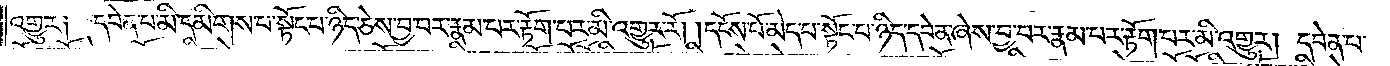འགྱུར༏ དབེན་པ་མི་དམིགས་པ་སྟོང་པ་ཉིད་ཅེས་བྱ་བར་རྣམ་པར་རྟོག་པར་མི་འགྱུར་རོ། །དངོས་པོ་མེད་པ་སྟོང་པ་ཉིད་དབེན་ཞེས་བྱ་བར་རྣམ་པར་རྟོག་པར་མི་འགྱུར། དབེན་པ་
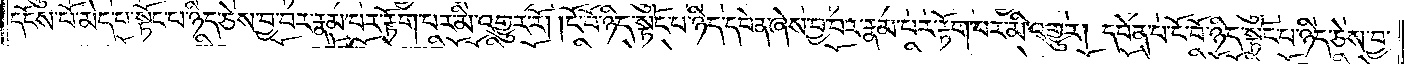དངོས་པོ་མེད་པ་སྟོང་པ་ཉིད་ཅེས་བྱ་བར་རྣམ་པར་རྟོག་པར་མི་འགྱུར་རོ། །ངོ་བོ་ཉིད་སྟོང་པ་ཉིད་དབེན་ཞེས་བྱ་བར་རྣམ་པར་རྟོག་པར་མི་འགྱུར། དབེན་པ་ངོ་བོ་ཉིད་སྟོང་པ་ཉིད་ཅེས་བྱ་
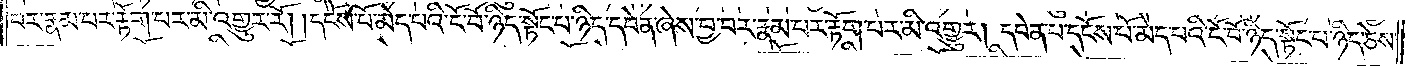བར་རྣམ་པར་རྟོག་པར་མི་འགྱུར་རོ། །དངོས་པོ་མེད་པའི་ངོ་བོ་ཉིད་སྟོང་པ་ཉིད་དབེན་ཞེས་བྱ་བར་རྣམ་པར་རྟོག་པར་མི་འགྱུར། དབེན་པ་དངོས་པོ་མེད་པའི་ངོ་བོ་ཉིད་སྟོང་པ་ཉིད་ཅེས་
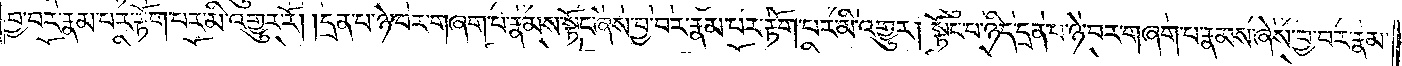བྱ་བར་རྣམ་པར་རྟོག་པར་མི་འགྱུར་རོ། །དྲན་པ་ཉེ་བར་བཞག་པ་རྣམས་སྟོང་ཞེས་བྱ་བར་རྣམ་པར་རྟོག་པར་མི་འགྱུར། སྟོང་པ་ཉིད་དྲན་པ་ཉེ་བར་བཞག་པ་རྣམས་ཞེས་བྱ་བར་རྣམ་
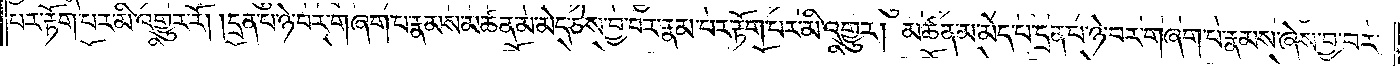པར་རྟོག་པར་མི་འགྱུར་རོ། །དྲན་པ་ཉེ་བར་བཞག་པ་རྣམས་མཚན་མ་མེད་ཅེས་བྱ་བར་རྣམ་པར་རྟོག་པར་མི་འགྱུར། མཚན་མ་མེད་པ་དྲན་པ་ཉ་བར་བཞག་པ་རྣམས་ཞེས་བྱ་བར་
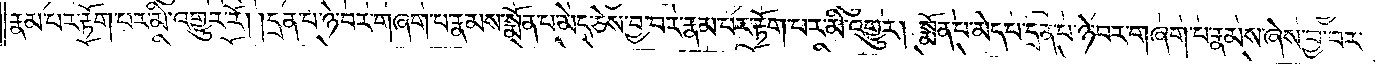རྣམ་པར་རྟོག་པར་མི་འགྱུར་རོ། །དྲན་པ་ཉེ་བར་བཞག་པ་རྣམས་སྨོན་པ་མེད་ཅེས་བྱ་བར་རྣམ་པར་རྟོག་པར་མི་འགྱུར། སྨོན་པ་མེད་པ་དྲན་པ་ཉེ་བར་བཞག་པ་རྣམས་ཞེས་བྱ་བར་
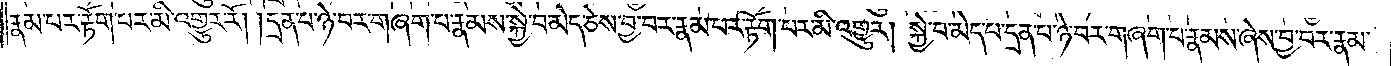རྣམ་པར་རྟོག་པར་མི་འགྱུར་རོ། །དྲན་པ་ཉེ་བར་བཞག་པ་རྣམས་སྐྱེ་བ་མེད་ཅེས་བྱ་བར་རྣམ་པར་རྟོག་པར་མི་འགྱུར། སྐྱེ་བ་མེད་པ་དྲན་པ་ཉེ་བར་བཞག་པ་རྣམས་ཞེས་བྱ་བར་རྣམ་
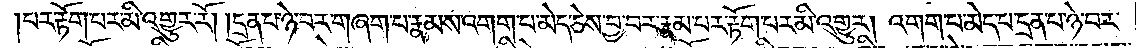པར་རྟོག་པར་མི་འགྱུར་རོ། །དྲན་པ་ཉེ་བར་བཞག་པ་རྣམས་འགག་པ་མེད་ཅེས་བྱ་བར་རྣམ་པར་རྟོག་པར་མི་འགྱུར། འགག་པ་མེད་པ་དྲན་པ་ཉེ་བར་
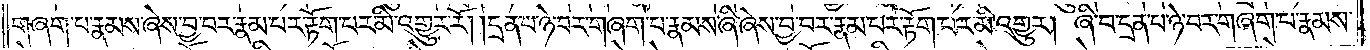གཞག་པ་རྣམས་ཞེས་བྱ་བར་རྣམ་པར་རྟོག་པར་མི་འགྱུར་རོ། །དྲན་པ་ཉེ་བར་གཞག་པ་རྣམས་ཞི་ཞེས་བྱ་བར་རྣམ་པར་རྟོག་པར་མི་འགྱུར། ཞི་བ་དྲན་པ་ཉེ་བར་གཞག་པ་རྣམས་
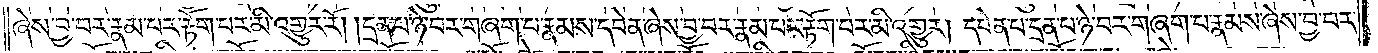ཞེས་བྱ་བར་རྣམ་པར་རྟོག་པར་མི་འགྱུར་རོ། །དྲན་པ་ཉེ་བར་བཞག་པ་རྣམས་དབེན་ཞེས་བྱ་བར་རྣམ་པར་རྟོག་པར་མི་འགྱུར། དབེན་པ་དྲན་པ་ཉེ་བར་བཞག་པ་རྣམས་ཞེས་བྱ་བར་
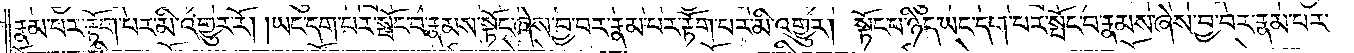རྣམ་པར་རྟོག་པར་མི་འགྱུར་རོ། །ཡང་དག་པར་སྤོང་བ་རྣམས་སྟོང་ཞེས་བྱ་བར་རྣམ་པར་རྟོག་པར་མི་འགྱུར། སྟོང་པ་ཉིད་ཡང་དག་པར་སྤོང་བ་རྣམས་ཞེས་བྱ་བར་རྣམ་པར་
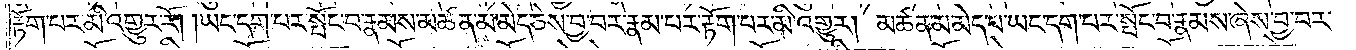རྟོག་པར་མི་འགྱུར་རོ། །ཡང་དག་པར་སྤོང་བ་རྣམས་མཚན་མ་མེད་ཅེས་བྱ་བར་རྣམ་པར་རྟོག་པར་མི་འགྱུར། མཚན་མ་མེད་པ་ཡང་དག་པར་སྤོང་བ་རྣམས་ཞེས་བྱ་བར་
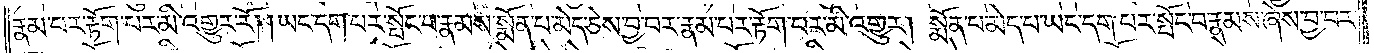རྣམ་པར་རྟོག་པར་མི་འགྱུར་རོ། །ཡང་དག་པར་སྤོང་བ་རྣམས་སྨོན་པ་མེད་ཅེས་བྱ་བར་རྣམ་པར་རྟོག་པར་མི་འགྱུར། སྨོན་པ་མེད་པ་ཡང་དག་པར་སྤོང་བ་རྣམས་ཞེས་བྱ་བར་
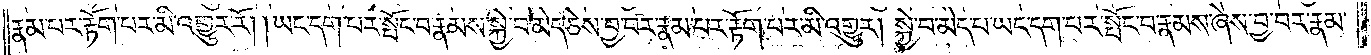རྣམ་པར་རྟོག་པར་མི་འགྱུར་རོ། །ཡང་དག་པར་སྤོང་བ་རྣམས་སྐྱེ་བ་མེད་ཅེས་བྱ་བར་རྣམ་པར་རྟོག་པར་མི་འགྱུར། སྐྱེ་བ་མེད་པ་ཡང་དག་པར་སྤོང་བ་རྣམས་ཞེས་བྱ་བར་རྣམ་
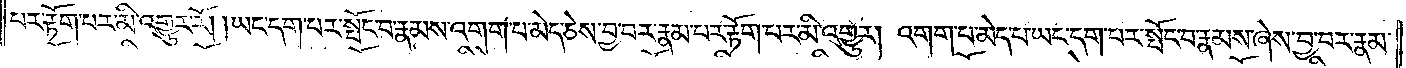པར་རྟོག་པར་མི་འགྱུར་རོ། །ཡང་དག་པར་སྤོང་བ་རྣམས་འགག་པ་མེད་ཅེས་བྱ་བར་རྣམ་པར་རྟོག་པར་མི་འགྱུར། འགག་པ་མེད་པ་ཡང་དག་པར་སྤོང་བ་རྣམས་ཞེས་བྱ་བར་རྣམ་
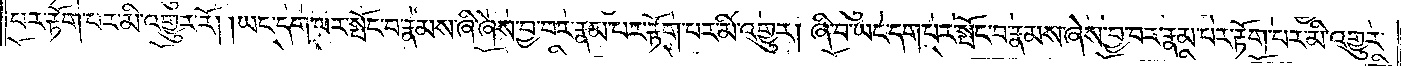པར་རྟོག་པར་མི་འགྱུར་རོ། །ཡང་དག་པར་སྤོང་བ་རྣམས་ཞི་ཞེས་བྱ་བར་རྣམ་པར་རྟོག་པར་མི་འགྱུར། ཞི་བ་ཡང་དག་པར་སྤོང་བ་རྣམས་ཞེས་བྱ་བར་རྣམ་པར་རྟོག་པར་མི་འགྱུར་
